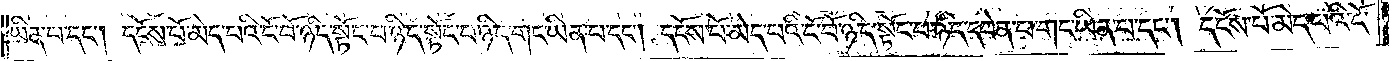ཡིན་པ་དང༌། དངོས་པོ་མེད་པའི་ངོ་བོ་ཉིད་སྟོང་པ་ཉིད་སྟོང་པ་ཉིད་གང་ཡིན་པ་དང༌། དངོས་པོ་མེད་པའི་ངོ་བོ་ཉིད་སྟོང་པ་ཉིད་དབེན་པ་གང་ཡིན་པ་དང༌། དངོས་པོ་མེད་པའི་ངོ་
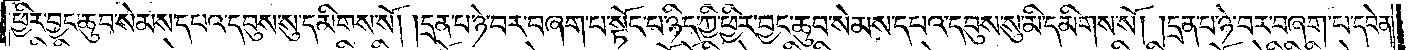ཕྱིར་བྱང་ཆུབ་སེམས་དཔའ་དབུས་སུ་མི་དམིགས་སོ། །དྲན་པ་ཉེ་བར་བཞག་པ་སྟོང་པ་ཉིད་ཀྱི་ཕྱིར་བྱང་ཆུབ་སེམས་དཔའ་དབུས་སུ་མི་དམིགས་སོ། །དྲན་པ་ཉེ་བར་བཞག་པ་དབེན་
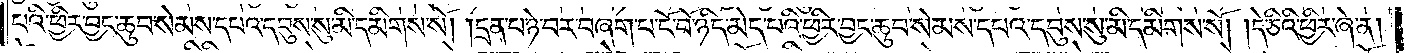པའི་ཕྱིར་བྱང་ཆུབ་སེམས་དཔའ་དབུས་སུ་མི་དམིགས་སོ། །དྲན་པ་ཉེ་བར་བཞག་པ་ངོ་བོ་ཉིད་མེད་པའི་ཕྱིར་བྱང་ཆུབ་སེམས་དཔའ་དབུས་སུ་མི་དམིགས་སོ། །དེ་ཅིའི་ཕྱིར་ཞེ་ན།
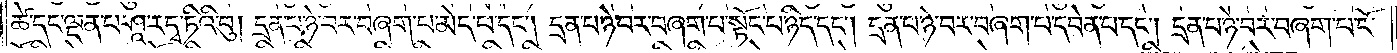ཚེ་དང་ལྡན་པ་ཤཱ་རདྭ་ཏིའི་བུ། དྲན་པ་ཉེ་བར་བཞག་པ་མེད་པ་དང༌། དྲན་པ་ཉེ་བར་བཞག་པ་སྟོང་པ་ཉིད་དང༌། དྲན་པ་ཉེ་བར་བཞག་པ་དབེན་པ་དང༌། དྲན་པ་ཉེ་བར་བཞག་པ་ངོ་
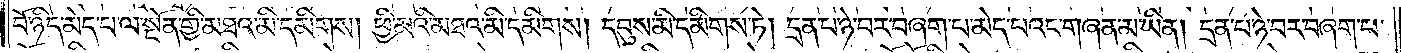བོ་ཉིད་མེད་པ་ལ་སྔོན་གྱི་མཐའ་མི་དམིགས། ཕྱི་མའི་མཐའ་མི་དམིགས། དབུས་མི་དམིགས་ཏེ། དྲན་པ་ཉེ་བར་བཞག་པ་མེད་པའང་གཞན་མ་ཡིན། དྲན་པ་ཉེ་བར་བཞག་པ་
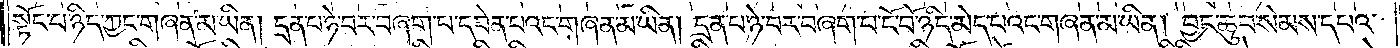སྟོང་པ་ཉིད་ཀྱང་གཞན་མ་ཡིན། དྲན་པ་ཉེ་བར་བཞག་པ་དབེན་པའང་གཞན་མ་ཡིན། དྲན་པ་ཉེ་བར་བཞག་པ་ངོ་བོ་ཉིད་མེད་པའང་གཞན་མ་ཡིན། བྱང་ཆུབ་སེམས་དཔའ་
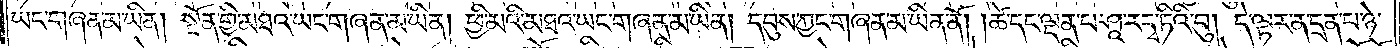ཡང་གཞན་མ་ཡིན། སྔོན་གྱི་མཐའ་ཡང་གཞན་མ་ཡིན། ཕྱི་མའི་མཐའ་ཡང་གཞན་མ་ཡིན། དབུས་ཀྱང་གཞན་མ་ཡིན་ནོ། །ཚེ་དང་ལྡན་པ་ཤཱ་རདྭ་ཏིའི་བུ། དེ་ལྟར་ན་དྲན་པ་ཉེ་
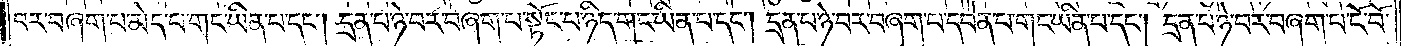བར་བཞག་པ་མེད་པ་གང་ཡིན་པ་དང༌། དྲན་པ་ཉེ་བར་བཞག་པ་སྟོང་པ་ཉིད་གང་ཡིན་པ་དང༌། དྲན་པ་ཉེ་བར་བཞག་པ་དབེན་པ་གང་ཡིན་པ་དང༌། དྲན་པ་ཉེ་བར་བཞག་པ་ངོ་བོ་
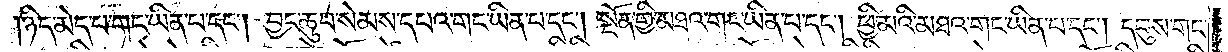ཉིད་མེད་པ་གང་ཡིན་པ་དང༌། བྱང་ཆུབ་སེམས་དཔའ་གང་ཡིན་པ་དང༌། སྔོན་གྱི་མཐའ་གང་ཡིན་པ་དང༌། ཕྱི་མའི་མཐའ་གང་ཡིན་པ་དང༌། དབུས་གང་
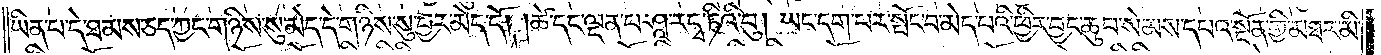ཡིན་པ་དེ་ཐམས་ཅད་ཀྱང་གཉིས་སུ་མེད་དེ་གཉིས་སུ་བྱར་མེད་དོ། །ཚེ་དང་ལྡན་པ་ཤཱ་རདྭ་ཏིའི་བུ། ཡང་དག་པར་སྤོང་བ་མེད་པའི་ཕྱིར་བྱང་ཆུབ་སེམས་དཔའ་སྔོན་གྱི་མཐར་མི་
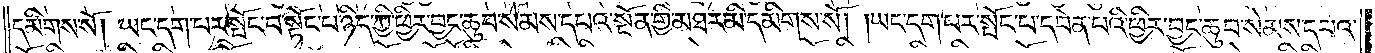དམིགས་སོ། །ཡང་དག་པར་སྤོང་བ་སྟོང་པ་ཉིད་ཀྱི་ཕྱིར་བྱང་ཆུབ་སེམས་དཔའ་སྔོན་གྱི་མཐར་མི་དམིགས་སོ། །ཡང་དག་པར་སྤོང་བ་དབེན་པའི་ཕྱིར་བྱང་ཆུབ་སེམས་དཔའ་
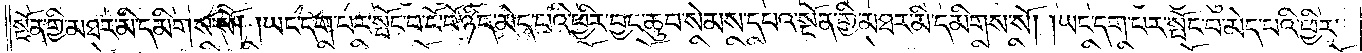སྔོན་གྱི་མཐར་མི་དམིགས་སོ། །ཡང་དག་པར་སྤོང་བ་ངོ་བོ་ཉིད་མེད་པའི་ཕྱིར་བྱང་ཆུབ་སེམས་དཔའ་སྔོན་གྱི་མཐར་མི་དམིགས་སོ། །ཡང་དག་པར་སྤོང་བ་མེད་པའི་ཕྱིར་
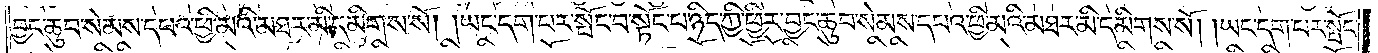བྱང་ཆུབ་སེམས་དཔའ་ཕྱི་མའི་མཐར་མི་དམིགས་སོ། །ཡང་དག་པར་སྤོང་བ་སྟོང་པ་ཉིད་ཀྱི་ཕྱིར་བྱང་ཆུབ་སེམས་དཔའ་ཕྱི་མའི་མཐར་མི་དམིགས་སོ། །ཡང་དག་པར་སྤོང་
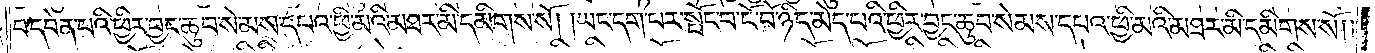བ་དབེན་པའི་ཕྱིར་བྱང་ཆུབ་སེམས་དཔའ་ཕྱི་མའི་མཐར་མི་དམིགས་སོ། །ཡང་དག་པར་སྤོང་བ་ངོ་བོ་ཉིད་མེད་པའི་ཕྱིར་བྱང་ཆུབ་སེམས་དཔའ་ཕྱི་མའི་མཐར་མི་དམིགས་སོ། །
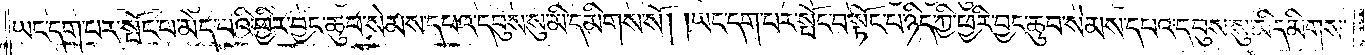ཡང་དག་པར་སྤོང་བ་མེད་པའི་ཕྱིར་བྱང་ཆུབ་སེམས་དཔའ་དབུས་སུ་མི་དམིགས་སོ། །ཡང་དག་པར་སྤོང་བ་སྟོང་པ་ཉིད་ཀྱི་ཕྱིར་བྱང་ཆུབ་སེམས་དཔའ་དབུས་སུ་མི་དམིགས་
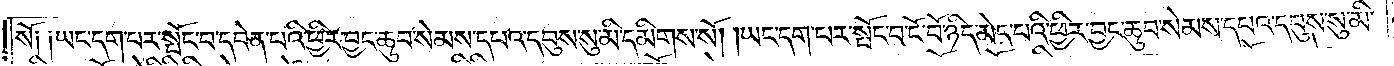སོ༑ ༑ཡང་དག་པར་སྤོང་བ་དབེན་པའི་ཕྱིར་བྱང་ཆུབ་སེམས་དཔའ་དབུས་སུ་མི་དམིགས་སོ། ཡང་དག་པར་སྤོང་བ་ངོ་བོ་ཉིད་མེད་པའི་ཕྱིར་བྱང་ཆུབ་སེམས་དཔའ་དབུས་སུ་མི་
